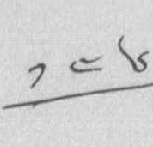༡༥༦
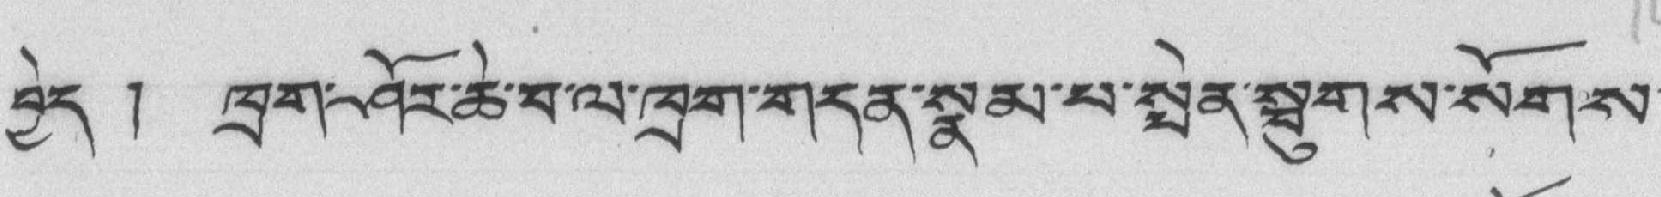བྱེད ། ཁྲག་ཤོར་ཆེ་བ་ལ་ཁྲག་གདན་སྣམ་པ་སྤེན་སྦུགས་སོགས་
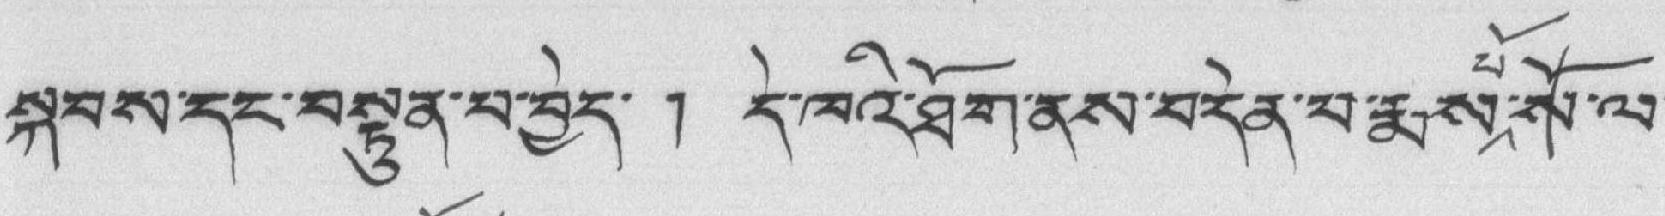སྐབས་དང་བསྟུན་པ་བྱེད་ ། དེ་ཁའི་ཐོག་ནས་བདེན་པ་རྨས་པོ་སོ་ལ་
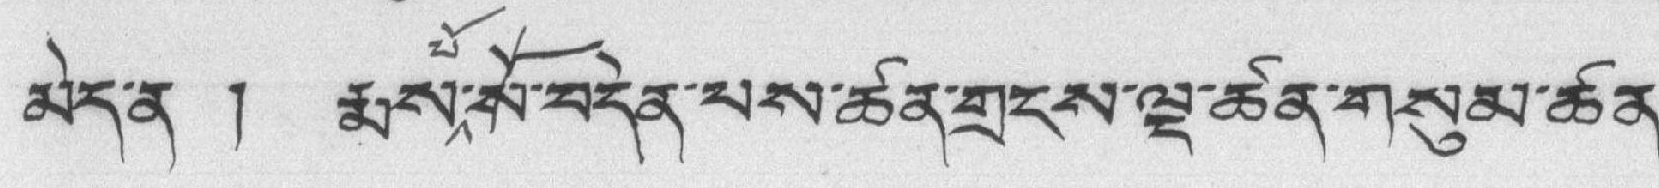མེད་ན ། རྨས་པོ་སོ་བདེན་པས་ཚན་གྲངས་ལྔ་ཚན་གསུམ་ཚན་
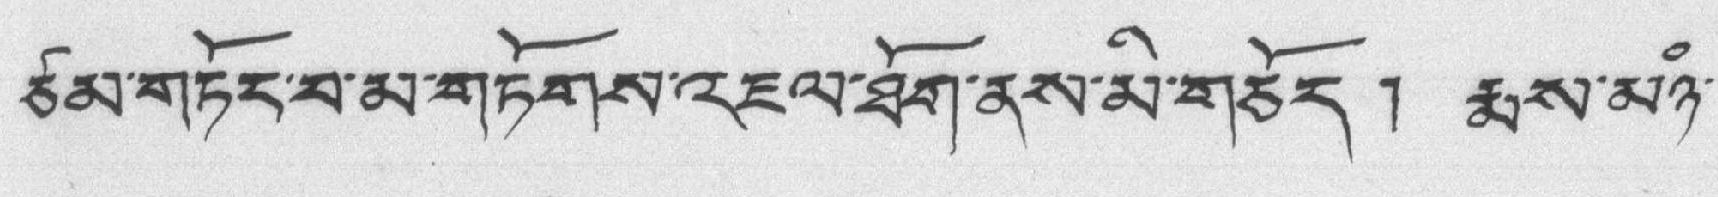ཙམ་གཏོང་བ་མ་གཏོགས་འཇལ་ཐོག་ནས་མི་གཅོད། རྨས་མཉཾ་
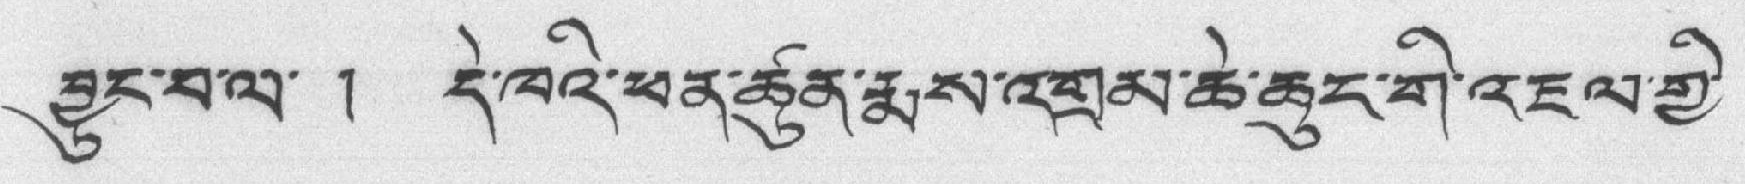བྱུང་བ་ལ་ ། དེ་ཁའི་ཕན་ཚུན་རྨས་འགྲམ་ཆེ་ཆུང་གི་འཇལ་གྱི་
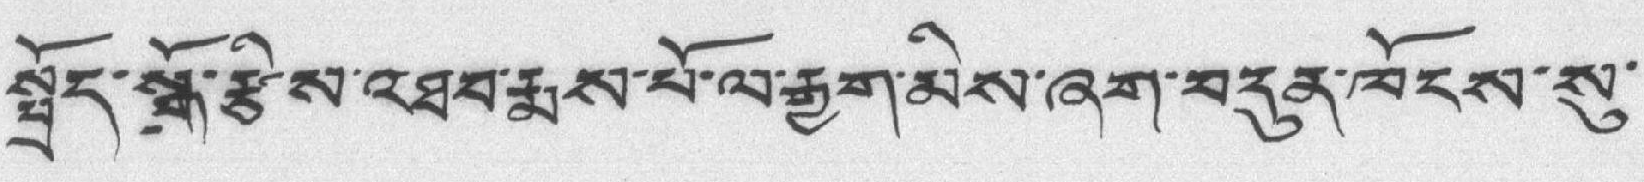སྤྱོད་སྒོ་རྩིས་འཐབ་རྨས་པོ་ལ་རྒྱག་མིས་ཞག་བདུན་ཁོངས་སུ་
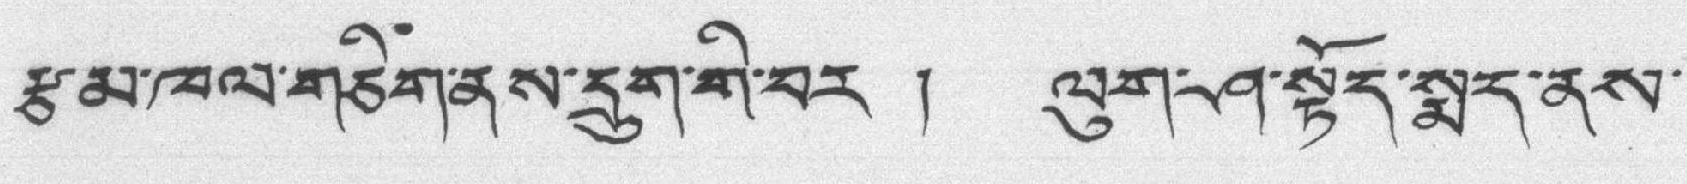རྩ་མ་ཁལ་གཅིག་ནས་དྲུག་གི་བར ། ལུག་ཤ་སྟོད་སྨད་ནས་
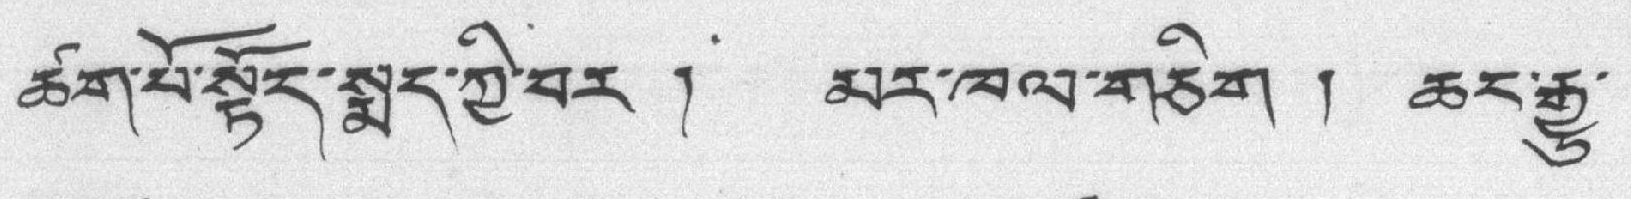ཚག་པོ་སྟོད་སྨད་ཀྱི་བར ། མར་ཁལ་གཅིག ། ཆང་རྒྱུ་
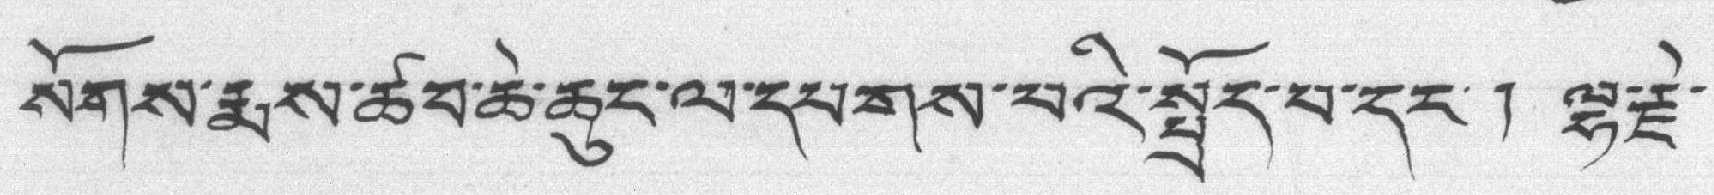སོགས་རྨས་ཚབ་ཆེ་ཆུང་ལ་དཔགས་པའི་སྤྲོད་པ་དང་། ལྷ་རྗེ་
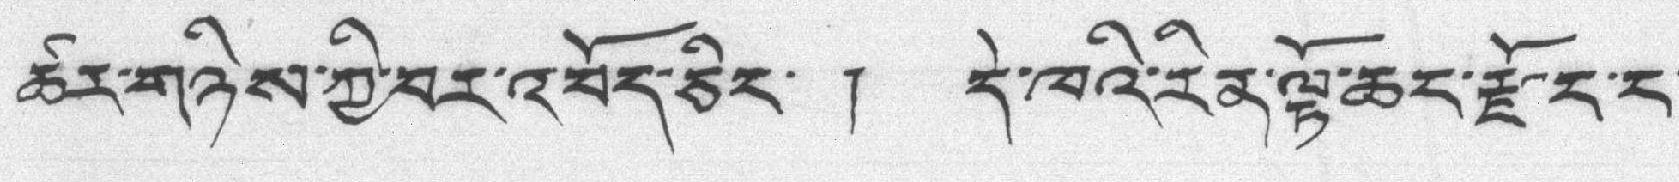ཚར་གཉིས་ཀྱི་བར་འབོད་ཅིང་ ། དེ་ཁའི་རིན་ལྟོ་ཆང་རྫོང་ང་
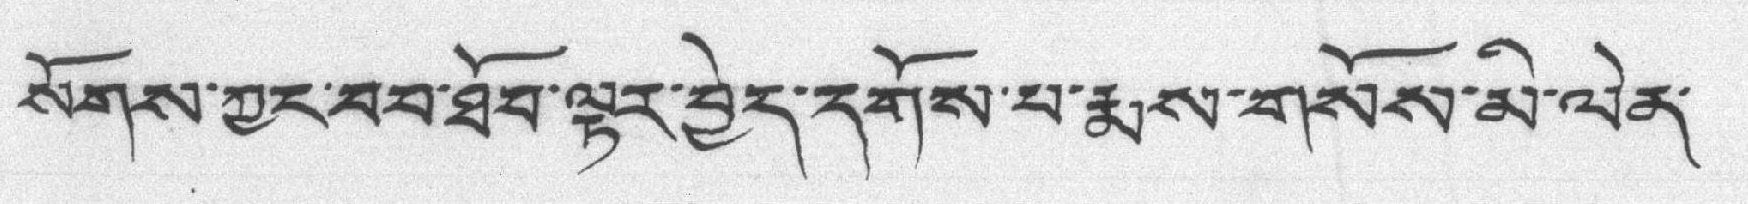སོགས་ཀྱང་བབ་ཐོབ་ལྟར་བྱེད་དགོས་པ་རྨས་གསོས་མི་ལེན་
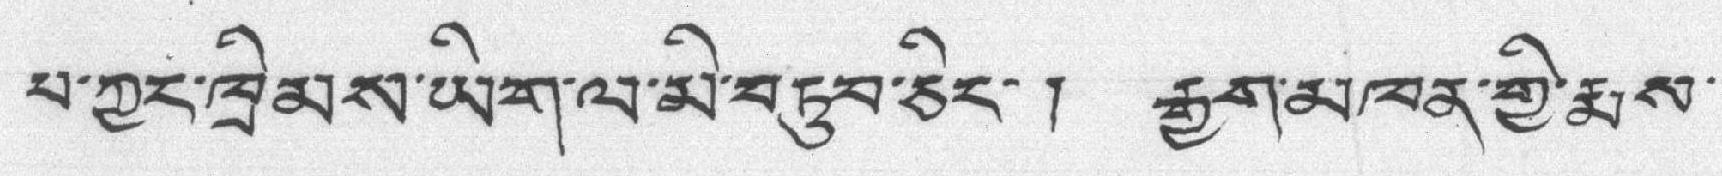པ་ཀྱང་ཁྲིམས་ཡིག་ལ་མི་བཏུབ་ཅིང་། རྒྱག་མཁན་གྱི་རྨས་
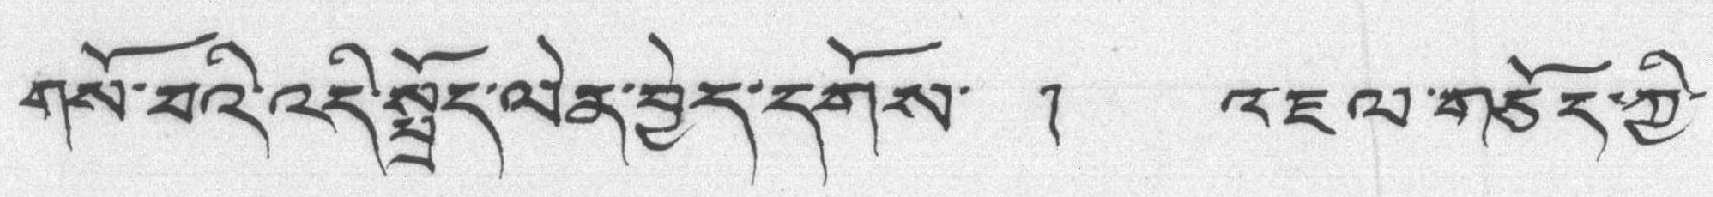གསོ་བའི་འདི་སྤྲོད་ལེན་བྱེད་དགོས་ ། འཇལ་གཅོད་ཀྱི་
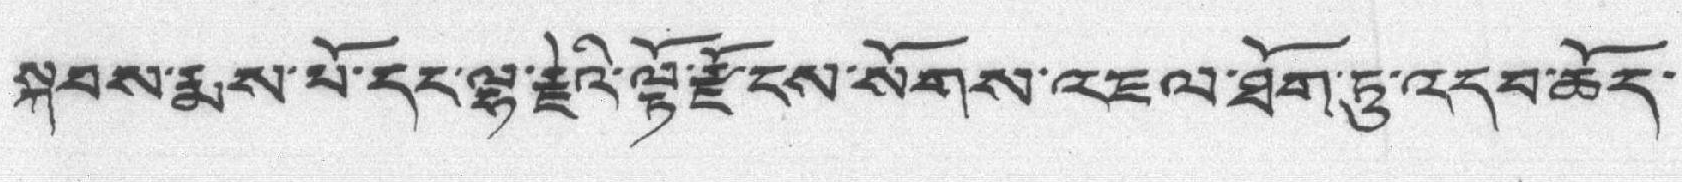སྐབས་རྨས་པོ་དང་ལྷ་རྗེའི་ལྟོ་རྫོངས་སོགས་འཇལ་ཐོག་ཏུ་འདབ་ཆོད་
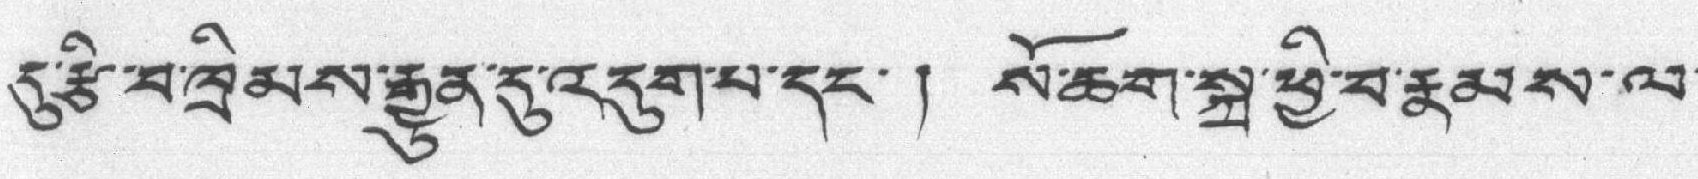དུ་རྩི་བ་ཁྲིམས་རྒྱུན་དུ་འདུག་པ་དང་། སོ་ཆག་སྐྲ་ཕྱི་བ་རྣམས་ལ་
